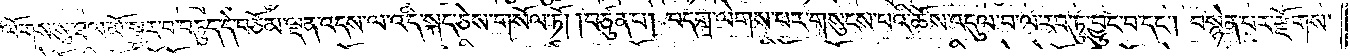ལོགས་སུ་ཐལ་མོ་སྦྱར་བ་བཏུད་དེ་བཅོམ་ལྡན་འདས་ལ་འདི་སྐད་ཅེས་གསོལ་ཏོ། །བཙུན་པ། བདག་ལེགས་པར་གསུངས་པའི་ཆོས་འདུལ་བ་ལ་རབ་ཏུ་བྱུང་བ་དང༌། བསྙེན་པར་རྫོགས་
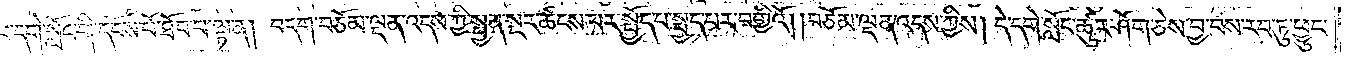པ་དགེ་སློང་གི་དངོས་པོ་ཐོབ་པ་ལྟ་ན། བདག་བཅོམ་ལྡན་འདས་ཀྱི་སྤྱན་སྔར་ཚངས་པར་སྤྱོད་པ་སྤྱད་པར་བགྱིའོ། །བཅོམ་ལྡན་འདས་ཀྱིས། དེ་དགེ་སློང་ཚུར་ཤོག་ཅེས་བྱ་བས་རབ་ཏུ་ཕྱུང་
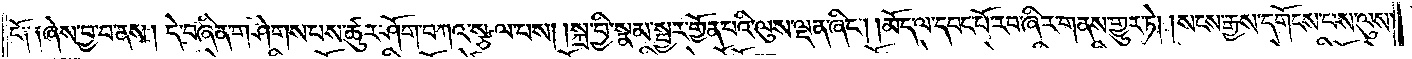ངོ༏ ༏ཞེས་བྱ་བ་ནས། དེ་བཞིན་གཤེགས་པས་ཚུར་ཤོག་བཀའ་སྩལ་པས། །སྐྲ་བྱི་སྣམ་སྦྱར་གྱོན་པའི་ལུས་ལྡན་ཞིང༌། །མོད་ལ་དབང་པོ་རབ་ཞིར་གནས་གྱུར་ཏེ། །སངས་རྒྱས་དགོངས་པས་ལུས་
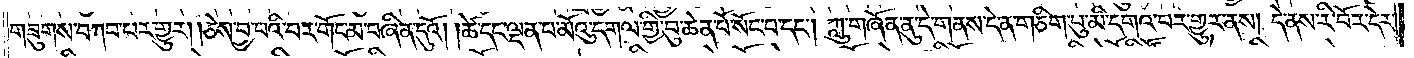གཟུགས་བཀབ་པར་གྱུར། །ཅེས་བྱ་བའི་བར་གོང་མ་བཞིན་དུའོ། །ཚེ་དང་ལྡན་པ་མོའུ་དགལ་གྱི་བུ་ཆེན་པོ་སོང་བ་དང༌། ཀླུ་གཞོན་ནུ་དེ་གནས་དེ་ན་གཅིག་པུ་མི་དགའ་བར་གྱུར་ནས། དེ་ནས་རི་བོར་དེར་
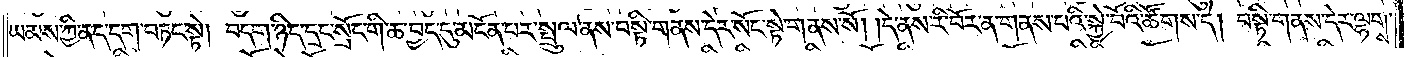ཡམས་ཀྱི་ནད་དག་བཏང་སྟེ། བདག་ཉིད་དྲང་སྲོང་གི་ཆ་བྱད་དུ་མངོན་པར་སྤྲུལ་ནས་བསྟི་གནས་དེར་སོང་སྟེ་གནས་སོ། །དེ་ནས་རི་བོར་ན་གནས་པའི་སྐྱེ་བོའི་ཚོགས་དེ། བསྟི་གནས་དེར་ལྷགས་
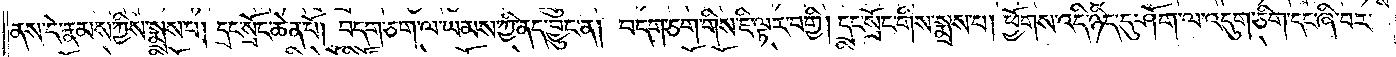ནས་དེ་རྣམས་ཀྱིས་སྨྲས་པ། དྲང་སྲོང་ཆེན་པོ། བདག་ཅག་ལ་ཡམས་ཀྱི་ནད་བྱུང་ན། བདག་ཅག་གིས་ཇི་ལྟར་བགྱི། དྲང་སྲོང་གིས་སྨྲས་པ། ཕྱོགས་འདི་ཉིད་དུ་ཤོག་ལ་འདུག་ཅིག་དང་ཞི་བར་
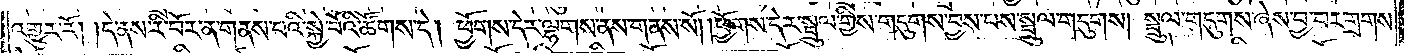འགྱུར་རོ། །དེ་ནས་རི་བོར་ན་གནས་པའི་སྐྱེ་བོའི་ཚོགས་དེ། ཕྱོགས་དེར་ལྷགས་ནས་གནས་སོ། །ཕྱོགས་དེར་སྤྲུལ་གྱིས་གདུགས་བྱས་པས་སྦྲུལ་གདུགས། སྦྲུལ་གདུགས་ཞེས་བྱ་བར་གྲགས་
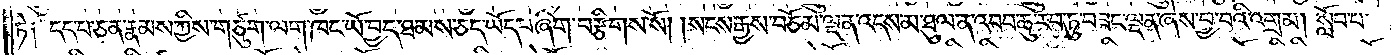ཏེ༑ དད་པ་ཅན་རྣམས་ཀྱིས་གཙུག་ལག་ཁང་ཡོ་བྱད་ཐམས་ཅད་ཡོད་པ་ཞིག་བརྩིགས་སོ། །སངས་རྒྱས་བཅོམ་ལྡན་འདས་མ་ཐུལ་ན་འབབ་ཆུ་རབ་ཏུ་བཟང་ལྡན་ཞེས་བྱ་བའི་འགྲམ། སློབ་པ་
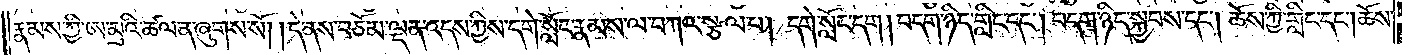རྣམས་ཀྱི་ཨ་མྲའི་ཚལ་ན་ཞུགས་སོ། །དེ་ནས་བཅོམ་ལྡན་འདས་ཀྱིས་དགེ་སློང་རྣམས་ལ་བཀའ་སྩལ་པ། དགེ་སློང་དག། བདག་ཉིད་གླིང་དང༌། བདག་ཉིད་སྐྱབས་དང༌། ཆོས་ཀྱི་གླིང་དང༌། ཆོས་
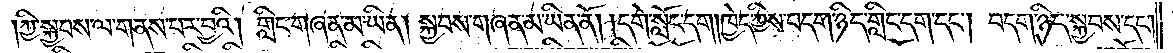ཀྱི་སྐྱབས་ལ་གནས་པར་བྱའི། གླིང་གཞན་མ་ཡིན། སྐྱབས་གཞན་མ་ཡིན་ནོ། །དགེ་སློང་དག །ཁྱེད་ཀྱིས་བདག་ཉིད་གླིང་དག་དང༌། བདག་ཉིད་སྐྱབས་དང༌།
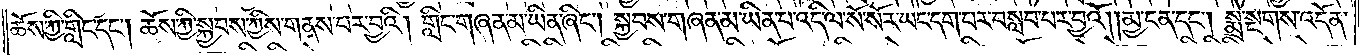ཆོས་ཀྱི་གླིང་དང༌། ཆོས་ཀྱི་སྐྱབས་ཀྱིས་གནས་པར་བྱའི། གླིང་གཞན་མ་ཡིན་ཞིང༌། སྐྱབས་གཞན་མ་ཡིན་པ་འདི་ལ་སོ་སོར་ཡང་དག་པར་བསླབ་པར་བྱའོ། །མྱ་ངན་དང༌། སྨྲེ་སྔགས་འདོན་
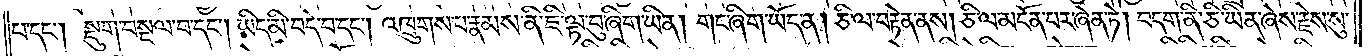པ་དང༌། སྡུག་བསྔལ་བ་དང༌། ཡིད་མི་བདེ་བ་དང༌། འཁྲུགས་པ་རྣམས་ནི་ཇི་ལྟ་བུ་ཞིག་ཡིན། གང་ཞིག་ཡོད་ན། ཅི་ལ་བརྟེན་ནས། ཅི་ལ་མངོན་པར་ཞེན་ཏེ། བདག་ནི་ཅི་ཡིན་ཞེས་རྗེས་སུ་
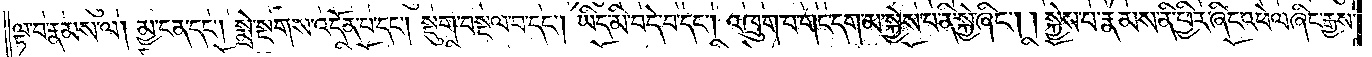ལྟ་བ་རྣམས་ལ། མྱ་ངན་དང༌། སྨྲེ་སྔགས་འདོན་པ་དང༌། སྡུག་བསྔལ་བ་དང༌། ཡིད་མི་བདེ་བ་དང༌། འཁྲུག་པ་གང་དག་མ་སྐྱེས་པ་ནི་སྐྱེ་ཞིང༌། །སྐྱེས་པ་རྣམས་ནི་ཕྱིར་ཞིང་འཕེལ་ཞིང་རྒྱས་
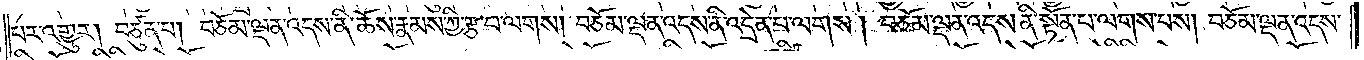པར་འགྱུར། བཙུན་པ། བཅོམ་ལྡན་འདས་ནི་ཆོས་རྣམས་ཀྱི་རྩ་བ་ལགས། བཅོམ་ལྡན་འདས་ནི་འདྲེན་པ་ལགས། བཅོམ་ལྡན་འདས་ནི་སྟོན་པ་ལགས་པས། བཅོམ་ལྡན་འདས་
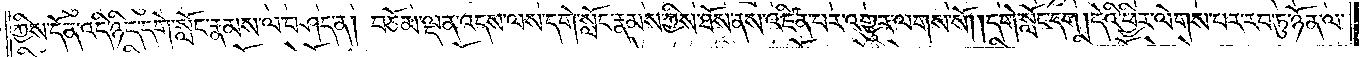ཀྱིས་དོན་འདི་ཉིད་དགེ་སློང་རྣམས་ལ་བཤད་ན། བཅོམ་ལྡན་འདས་ལས་དགེ་སློང་རྣམས་ཀྱིས་ཐོས་ནས་འཛིན་པར་འགྱུར་ལགས་སོ། །དགེ་སློང་དག །དེའི་ཕྱིར་ལེགས་པར་རབ་ཏུ་ཉོན་ལ་
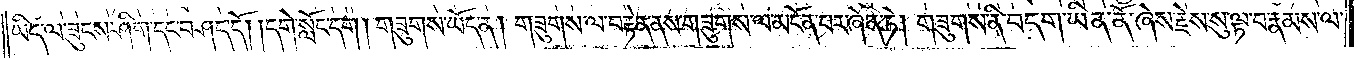ཡིད་ལ་ཟུངས་ཤིག་དང་བཤད་དོ། །དགེ་སློང་དག །གཟུགས་ཡོད་ན། གཟུགས་ལ་བརྟེན་ནས་གཟུགས་ལ་མངོན་པར་ཞེན་ཏེ། གཟུགས་ནི་བདག་ཡིན་ནོ་ཞེས་རྗེས་སུ་ལྟ་བ་རྣམས་ལ་
